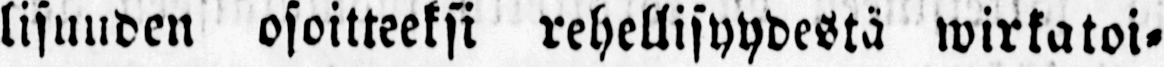lisuuden osoitteeksi rehellisyydestä wirkatoi-
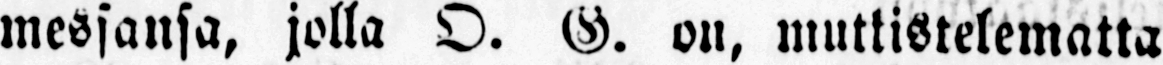messansa, jolla O. G. on, muttistelematta
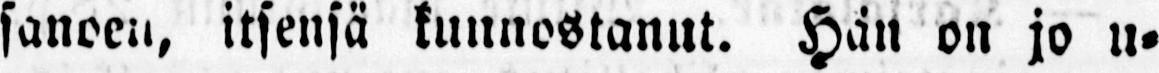sanoen, itsensä kunnostanut. Hän on jo u-
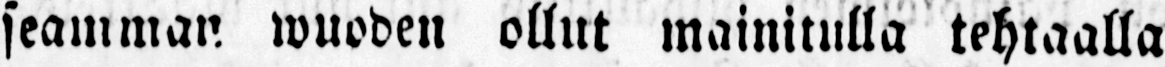seamman wuoden ollut mainitulla tehtaalla
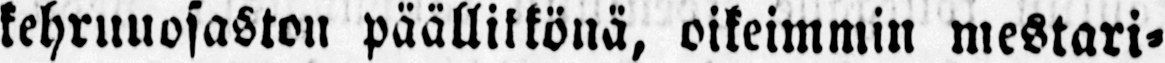kehruuosaston päällikkönä, oikeimmin mestari-
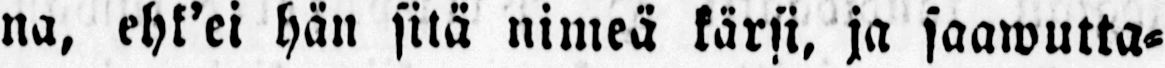na, ehk'ei hän sitä nimeä kärsi, ja saawutta-
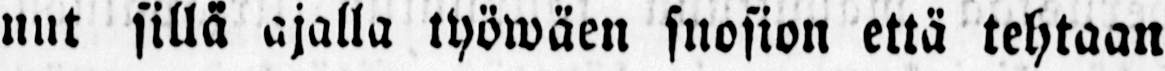nut sillä ajalla työwäen suosion että tehtaan
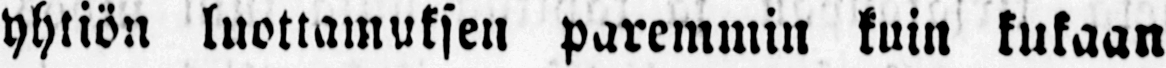yhtiön luottamuksen paremmin kuin kukaan
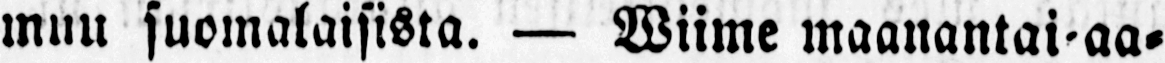muu suomalaisista. — Wiime maanantai aa-
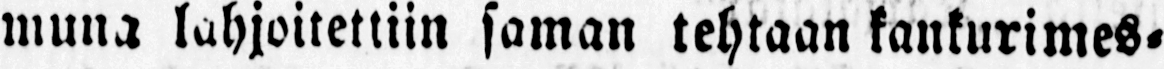muna lahjoitettiin saman tehtaan kankurimes-
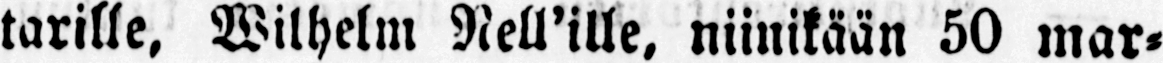tarille, Wilhelm Nell'ille, niinikään 50 mar-
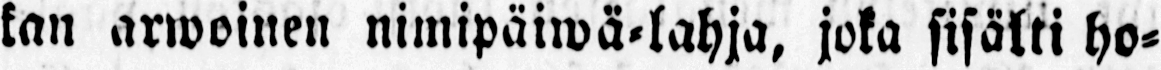kan arwoinen nimipäiwä-lahja, joka sisälti ho-
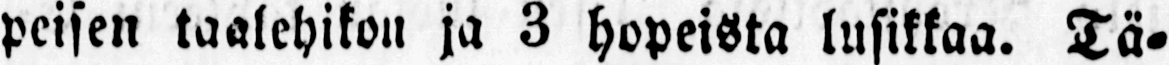peisen taalehikon ja 3 hopeistaä-
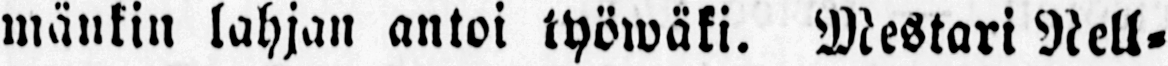mänkin lahjan antoi työwäki. Mestari Nell-
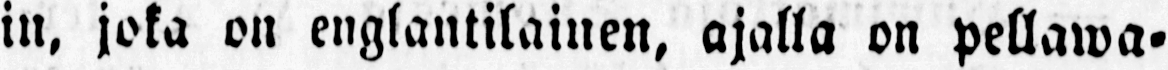in, joka on englantilainen, ajalla on pellatwa-
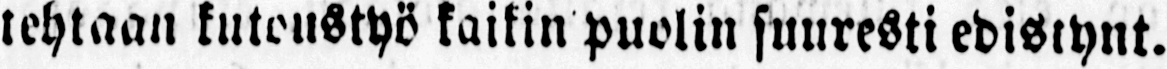tehtaan kutoustyö kaikin puolin suuresti edistynt.
